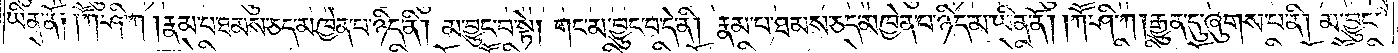ཡིན་ནོ། །ཀཽ་ཤི་ཀ །རྣམ་པ་ཐམས་ཅད་མཁྱེན་པ་ཉིད་ནི། མ་བྱུང་བ་སྟེ། གང་མ་བྱང་བ་དེ་ནི། རྣམ་པ་ཐམས་ཅད་མཁྱེན་པ་ཉིད་མ་ཡིན་ནོ། །ཀཽ་ཤི་ཀ །རྒྱུན་དུ་ཞུགས་པ་ནི། མ་བྱུང་
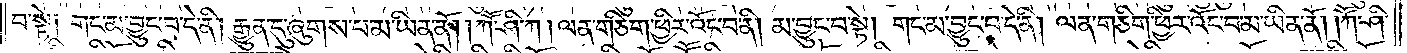བ་སྟེ། གང་མ་བྱུང་བ་དེ་ནི། རྒྱུན་དུ་ཞུགས་པ་མ་ཡིན་ནོ། །ཀཽ་ཤི་ཀ །ལན་གཅིག་ཕྱིར་འོང་བ་ནི། མ་བྱུང་བ་སྟེ། གང་མ་བྱུང་བ་དེ་ནི། ལན་གཅིག་ཕྱིར་འོང་བ་མ་ཡིན་ནོ། །ཀཽ་ཤི་
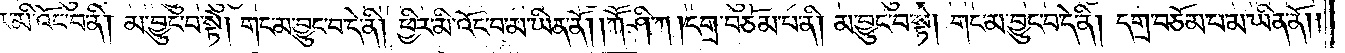མི་འོང་བ་ནི། མ་བྱུང་བ་སྟེ། གང་མ་བྱུང་བ་དེ་ནི། ཕྱིར་མི་འོང་བ་མ་ཡིན་ནོ། །ཀཽ་ཤི་ཀ །དགྲ་བཅོམ་པ་ནི། མ་བྱུང་བ་སྟེ། གང་མ་བྱུང་བ་དེ་ནི། དགྲ་བཅོམ་པ་མ་ཡིན་ནོ། །
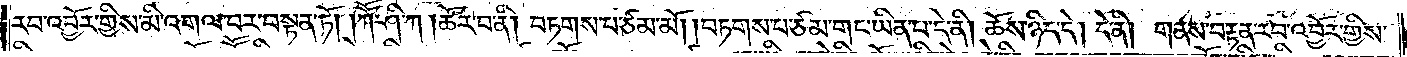རབ་འབྱོར་གྱིས་མི་འགལ་བར་བསྟན་ཏོ། །ཀཽ་ཤི་ཀ །ཚོར་བ་ནི། བཏགས་པ་ཙམ་མོ། །བཏགས་པ་ཙམ་གང་ཡིན་པ་དེ་ནི། ཆོས་ཉིད་དེ། དེ་ནི། གནས་བརྟན་རབ་འབྱོར་གྱིས་
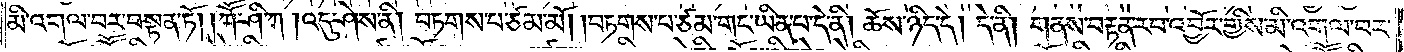མི་འགལ་བར་བསྟན་ཏོ། །ཀཽ་ཤི་ཀ །འདུ་ཤེས་ནི། བཏགས་པ་ཙམ་མོ། །བཏགས་པ་ཙམ་གང་ཡིན་པ་དེ་ནི། ཆོས་ཉིད་དེ། དེ་ནི། གནས་བརྟན་རབ་འབྱོར་གྱིས་མི་འགལ་བར་
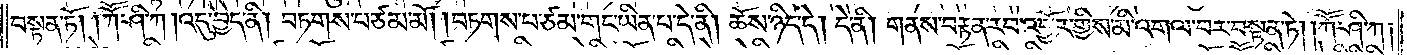བསྟན་ཏོ། །ཀཽ་ཤི་ཀ །འདུ་བྱེད་ནི། བཏགས་པ་ཙམ་མོ། །བཏགས་པ་ཙམ་གང་ཡིན་པ་དེ་ནི། ཆོས་ཉིད་དེ། དེ་ནི་།གནས་བརྟན་རབ་འབྱོར་གྱིས་མི་འགལ་བར་བསྟན་ཏེ། །ཀཽ་ཤི་ཀ།
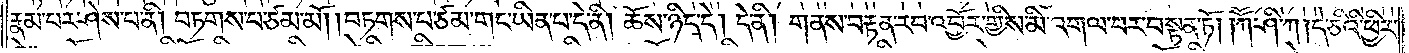རྣམ་པར་ཤེས་པ་ནི། བཏགས་པ་ཙམ་མོ། །བཏགས་པ་ཙམ་གང་ཡིན་པ་དེ་ནི། ཆོས་ཉིད་དེ། དེ་ནི། གནས་བརྟན་རབ་འབྱོར་གྱིས་མི་འགལ་བར་བསྟན་ཏོ། །ཀཽ་ཤི་ཀ །དེ་ཅིའི་ཕྱིར་
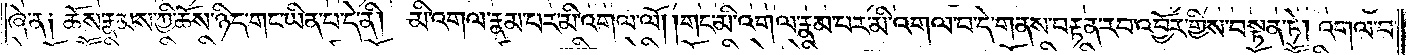ཞེ་ན། ཆོས་རྣམས་ཀྱི་ཆོས་ཉིད་གང་ཡིན་པ་དེ་ནི། མི་འགལ་རྣམ་པར་མི་འགལ་ལོ། །གང་མི་འགལ་རྣམ་པར་མི་འགལ་བ་དེ་གནས་བརྟན་རབ་འབྱོར་གྱིས་བསྟན་ཏེ། འགལ་བ་
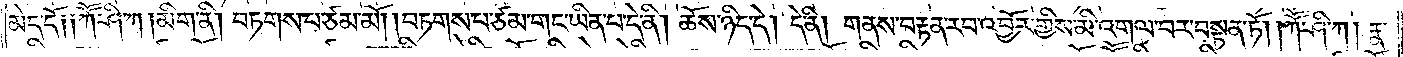མེད་དོ། །ཀོ་ཤི་ཀ །མིག་ནི། བཏགས་པ་ཙམ་མོ། །བཏགས་པ་ཙམ་གང་ཡིན་པ་དེ་ནི། ཆོས་ཉིད་དེ། དེ་ནི། གནས་བརྟན་རབ་འབྱོར་གྱིས་མི་འགལ་བར་བསྟན་ཏོ། །ཀཽ་ཤི་ཀ། རྣ་
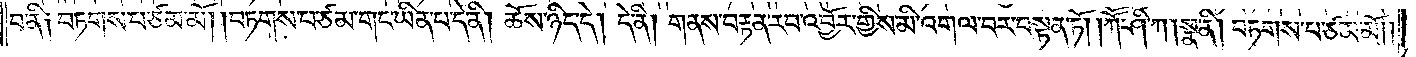བ་ནི། བཏགས་པ་ཙམ་མོ། །བཏགས་པ་ཙམ་གང་ཡིན་པ་དེ་ནི། ཆོས་ཉིད་དེ། དེ་ནི། གནས་བརྟན་རབ་འབྱོར་གྱིས་མི་འགལ་བར་བསྟན་ཏོ། །ཀཽ་ཤི་ཀ །སྣ་ནི། བཏགས་པ་ཙམ་མོ༎
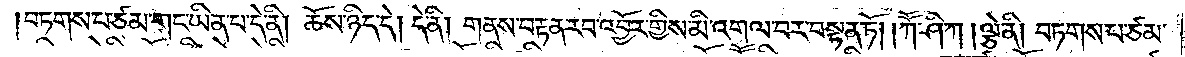བཏགས་པ་ཙམ་གང་ཡིན་པ་དེ་ནི། ཆོས་ཉིད་དེ། དེ་ནི། གནས་བརྟན་རབ་འབྱོར་གྱིས་མི་འགལ་བར་བསྟན་ཏོ། །ཀཽ་ཤི་ཀ །ལྕེ་ནི། བཏགས་པ་ཙམ་
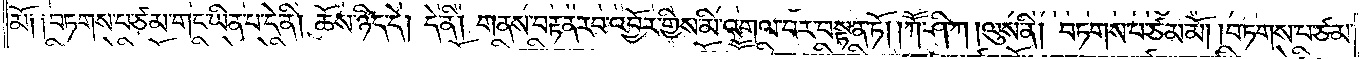མོ༑ ༑བཏགས་པ་ཙམ་གང་ཡིན་པ་དེ་ནི། ཆོས་ཉིད་དེ། དེ་ནི། གནས་བརྟན་རབ་འབྱོར་གྱིས་མི་འགལ་བར་བསྟན་ཏོ། །ཀཽ་ཤི་ཀ །ལུས་ནི། བཏགས་པ་ཙམ་མོ། །བཏགས་པ་ཙམ་
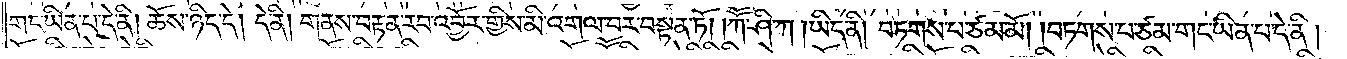གང་ཡིན་པ་དེ་ནི། ཆོས་ཉིད་དེ། དེ་ནི། གནས་བརྟན་རབ་འབྱོར་གྱིས་མི་འགལ་བར་བསྟན་ཏོ། །ཀཽ་ཤི་ཀ །ཡིད་ནི། བཏགས་པ་ཙམ་མོ། །བཏགས་པ་ཙམ་གང་ཡིན་པ་དེ་ནི།
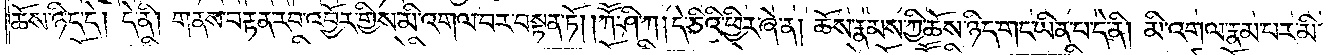ཆོས་ཉིད་དེ། དེ་ནི། གནས་བརྟན་རབ་འབྱོར་གྱིས་མི་འགལ་བར་བསྟན་ཏོ། །ཀཽ་ཤི་ཀ །དེ་ཅིའི་ཕྱིར་ཞེ་ན། ཆོས་རྣམས་ཀྱི་ཆོས་ཉིད་གང་ཡིན་པ་དེ་ནི། མི་འགལ་རྣམ་པར་མི་
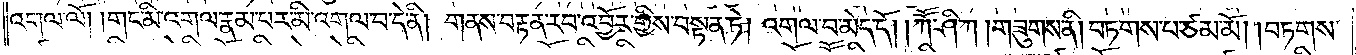འགལ་ལོ། །གང་མི་འགལ་རྣམ་པར་མི་འགལ་བ་དེ་ནི། གནས་བརྟན་རབ་འབྱོར་གྱིས་བསྟན་ཏེ། འགལ་བ་མེད་དོ། །ཀཽ་ཤི་ཀ །གཟུགས་ནི། བཏགས་པ་ཙམ་མོ། །བཏགས་
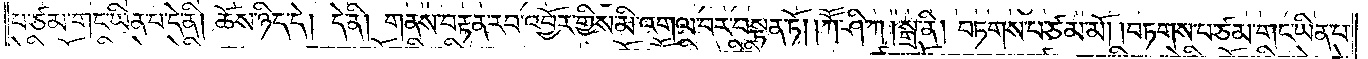པ་ཙམ་གང་ཡིན་པ་དེ་ནི། ཆོས་ཉིད་དེ། དེ་ནི། གནས་བརྟན་རབ་འབྱོར་གྱིས་མི་འགལ་བར་བསྟན་ཏོ། །ཀཽ་ཤི་ཀ །སྒྲ་ནི། བཏགས་པ་ཙམ་མོ། །བཏགས་པ་ཙམ་གང་ཡིན་པ་
